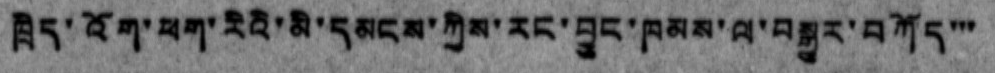ཁྲིད་འོག་ཕག་རིའི་མི་དམངས་ཀྱིས་རང་བྱུང་ཁམས་ལ་བསྒྱུར་བཀོད་་་
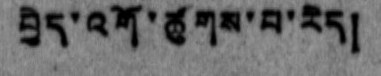བྱེད་འགོ་ཚུགས་པ་རེད།
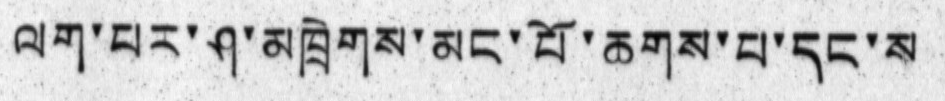ལག་པར་ཤ་མཁྲེགས་མང་པོ་ཆགས་པ་དང་ས
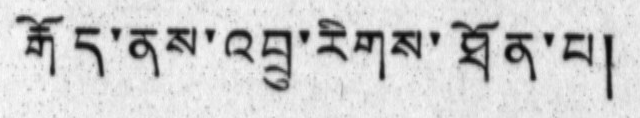རྒོད་ནས་འབྲུ་རིགས་ཐོན་པ།
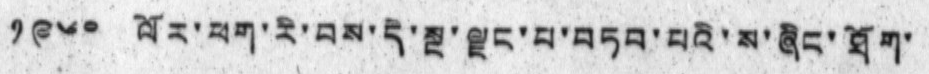༡༩༦༠ ལོར་ཕག་རི་བས་དེ་ལྔ་ལྗང་པ་བཏབ་པའི་ས་ཞིང་ཐོག་
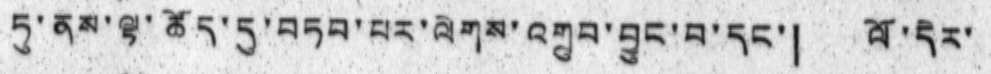ཏུ་ནས་ལྟ་ཚོད་དུ་བཏབ་པར་ལེགས་འགྲུབ་བྱུང་བ་དང་། ལོ་དེར་
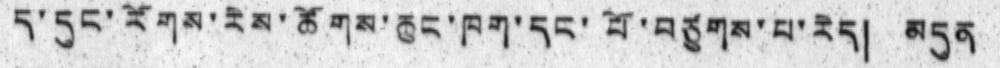ད་དུང་རོགས་རེས་ཚོགས་ཆུང་ཁག་དང་པོ་བཙུགས་པ་རེད། མདུན
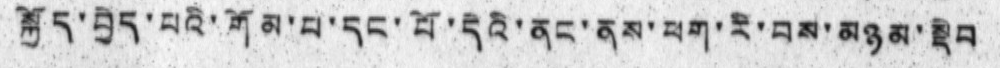སྐྱོད་བྱེད་པའི་གོམ་པ་དང་པོ་དེའི་ནང་ནས་ཕག་རི་བས་མཉམ་སྡེབ
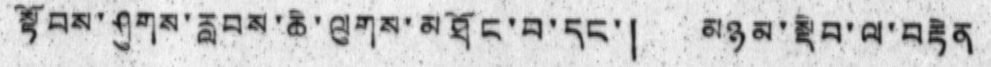སྟོབས་ཤུགས་རླབས་ཆེ་ལུགས་མཐོང་བ་དང་། མཉམ་སྡེབ་ལ་བརྟེན
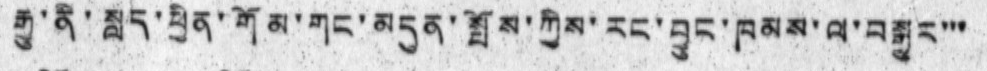རྒྱུ་ནི་སླད་ཕྱིན་གོམ་གང་མདུན་སྤོས་ཀྱིས་རང་བྱུང་ཁམས་ལ་བསྒྱུར་་་
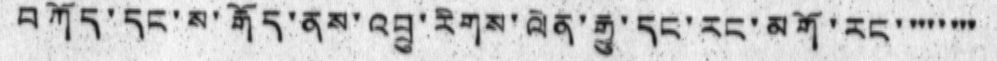བཀོད་དང་ས་རྒོད་ནས་འབྲུ་རིགས་ལེན་རྒྱུ་དང་རང་མགོ་རང་ ་་་་་་་
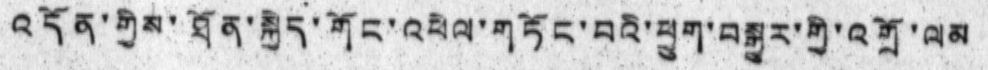འདོན་གྱིས་ཐོན་སྐྱེད་གོང་འཕེལ་གཏོང་བའི་ཕྱུག་བསྒྱུར་གྱི་འགྲོ་ལམ
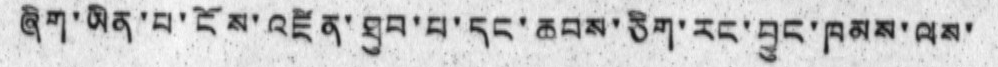ཞིག་ཡིན་པ་ངོས་འཛིན་ཐུབ་པ་དང་ཆབས་ཅིག་རང་བྱུང་ཁམས་ལས་
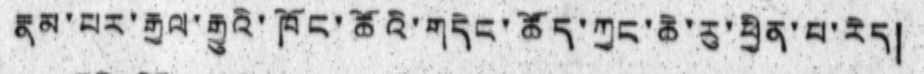རྣམ་པར་རྒྱལ་རྒྱུའི་ཁོང་ཚོའི་གདེང་ཚོད་ཀྱང་ཆེ་རུ་ཕྱིན་པ་རེད།
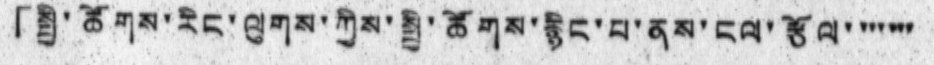「སྤྱི་ཚོགས་རིང་ལུགས་ཀྱིས་སྤྱི་ཚོགས་རྙིང་པ་ནས་ངལ་རྩོལ་ ་་་་་་
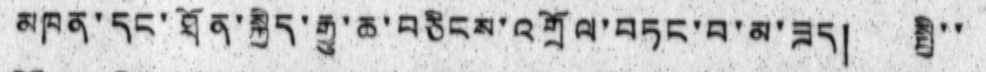མཁན་དང་ཐོན་སྐྱེད་རྒྱུ་ཆ་བཅིངས་འགྲོལ་བཏང་བ་མ་ཟད། སྤྱི་་
